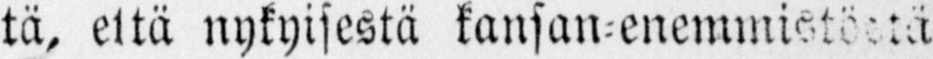tä, että nykyisestä kansan-enemmistöstä
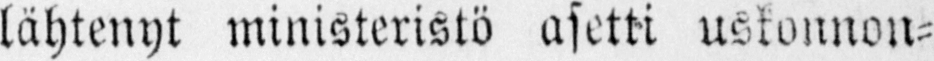lähtenyt ministeristö asetti uskonnon-
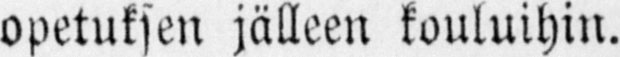opetuksen jälleen kouluihin.
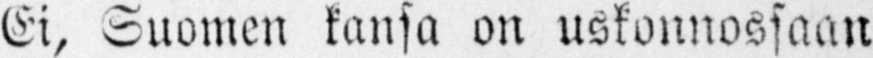Ei, Suomen kansa on uskonnossaan
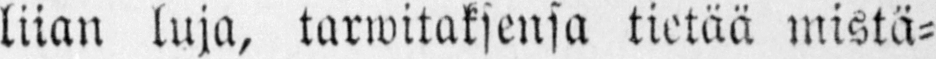liian luja, tarwitaksensa tietää mistä-
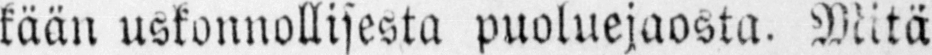kään uskonnollisesta puoluejaosta. Mitä
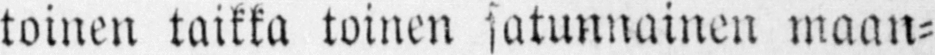toinen taikka toinen satunnainen maan-
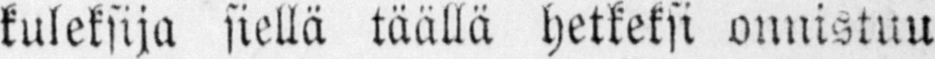kuleksija siellä täällä hetkeksi onnistuu
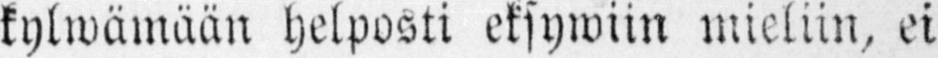kylwämään helposti eksywiin mieliin, ei
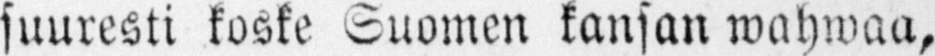suuresti koske Suomen kansan wahwaa,
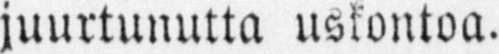juurtunutta uskontoa.
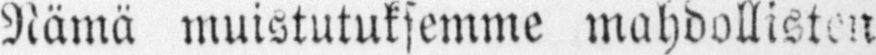Nämä muistutuksemme mahdollisten
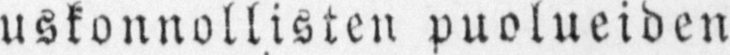uskonnollisten puolueiden waaral-
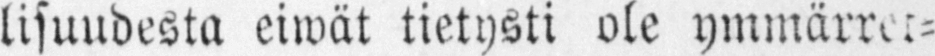lisuudesta eiwät tietysti ole ymmärret-
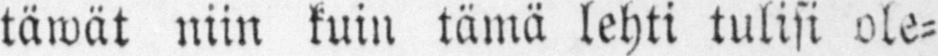täwät niin kuin tämä lehti tulisi ole-
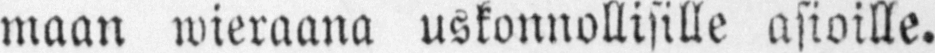maan wieraana uskonnollisille asioille.
